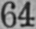64
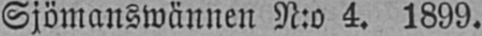Sjömanswännen N:o 4. 1899.
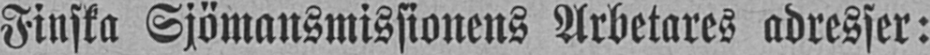Finska Sjömansmissionens Arbetares adresser:
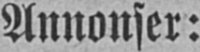Annonser:
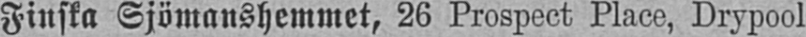Finska Sjömanshemmet, 26 Prospect Place, Drypool
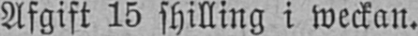Afgift 15 shilling i weckan.
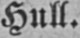Hull.
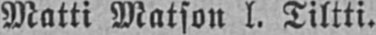Matti Matson l. Tiltti.
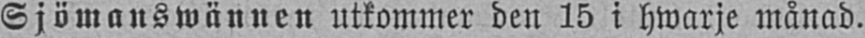Sjömanswännen utkommer den 15 i hwarje månad.
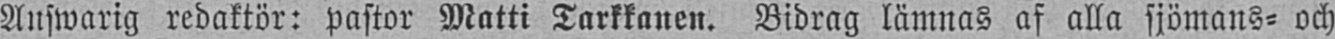Answarig redaktör: pastor Matti Tarkkanen. Bidrag lämnas af alla sjömans- och
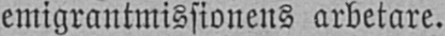emigrantmissionens arbetare.
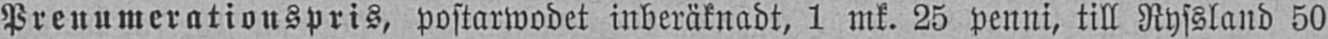Prenumerationspris, postarwodet inberäknadt, 1 mk. 25 penni, till Ryssland 50
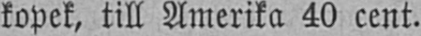kopek, till Amerika 40 cent.
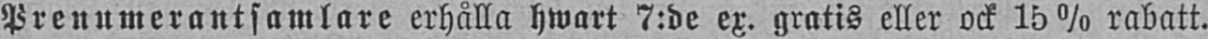Prenumerantsamlare erhålla hwart 7:de ex. gratis eller ock 15 % rabatt.
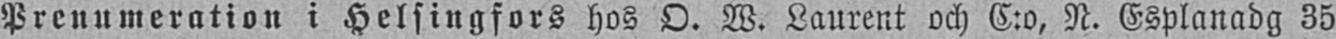Prenumeration i Helsingfors hos O. W. Laurent och C:o, N. Esplanadg 35
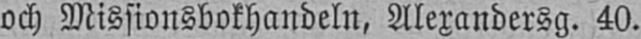och Missionsbokhandeln, Alexandersg. 40.
